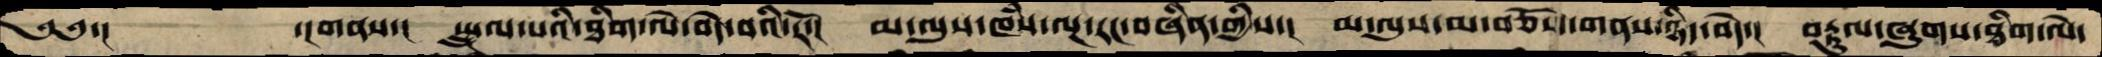༄༅་།         ་།གནས་།  སྤྲུལ་པའི་ཐིག་ལེ་བདེ་བའི་རོ་།  མ་ལུས་ཁཾས་ལྔ་རང་བཞིན་གྱིས་།  མ་ལུས་མ་བཅོས་གནས་ཉིད་བདེ་།  བརྟུལ་ཞུགས་ཐིག་ལེ་
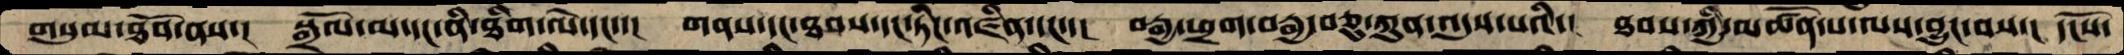གསུམ་ཐོབ་ནས་།  སྒྲོལ་མ་དང་ནི་ཐིག་ལེ་དང་་།  གནས་དང་ཐབས་དང་ཏིང་འཛིན་དང་་།  བརྒྱ་ཕྲག་བརྒྱ་བཅུ་ཀུན་འདུས་པའི་།  ཐབས་ཀྱི་མཚོན་པ་ལས་བྱུང་བས་།  དངོས་
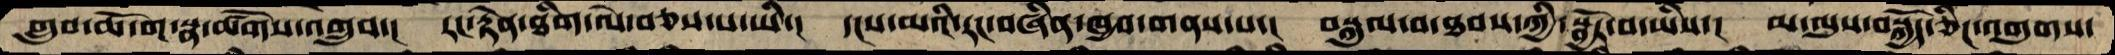གྲུབ་ཆོ་ག་སྣ་ཚོགས་འགྲུབ་།  རང་རྟེན་ཐིག་ལེ་བཅས་པ་ཡི་།  དངས་མའི་རང་བཞིན་ཁྱབ་གནས་པ་།  བསྐུལ་བ་ཐབས་ཀྱི་སྦྱོར་བ་ཡིས་།  མ་ལུས་བསྐྱོད་ཅིང་འགུགས་
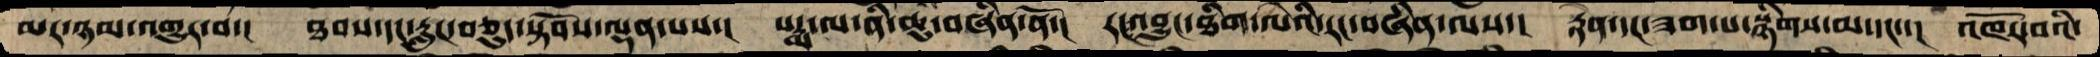མར་ཉམ་འགྱུར་བ་།  ཐབས་དང་རླུང་བཅུད་སྟོབས་ལྡན་པས་།  པདྨ་ལ་ནི་ཆུ་བཞིན་ནོ་།  རངའབྱུང་ཐིག་ལེའི་རང་བཞིན་ལས་།  རྟེན་དང་ཟག་པ་སྙིགས་མ་དང་་།  འཁོར་བའི་
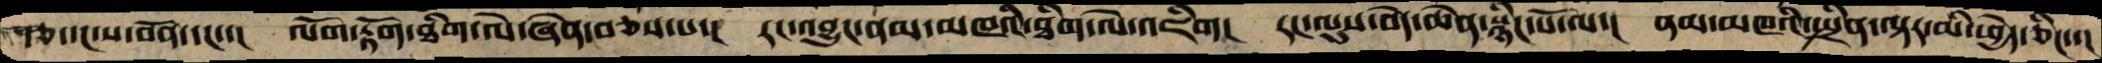རྩ་དང་ས་བོན་དང་་།  ལོག་རྟོག་ཐིག་ལེ་ཞེན་བཅས་པ་།  རང་འབྱུང་ནམ་མཁའི་ཐིག་ལེ་འཇིག།  རང་ལུས་བདེ་ཆེན་སྙིང་པོ་ལ་།  ནམ་མཁའི་སྤྲིན་ལྟར་མི་ཕྱེད་ཅིང་་།
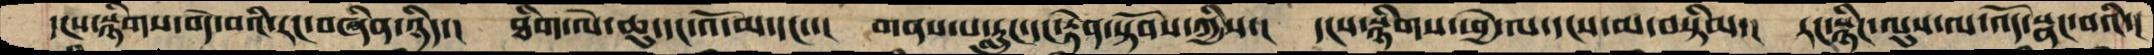དངས་སྙིགས་བདེ་བའི་རང་བཞིན་ཉིད་།  ཐིག་ལེ་ཆུ་དང་འོ་མ་དང་་།  གནས་པ་རླུང་དང་རྟེན་སྟོབས་ཀྱིས་།  དངས་སྙིགས་ཕྱེ་ལ་དངས་མ་བསྟིམ་།  རང་སྙིཌ་ལུས་ལ་འོད་སྣང་བའི་།
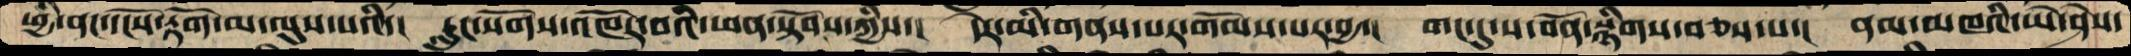ཕྱི་ནང་དངོས་རྟོག་མ་ལུས་པའི་།  རླུང་སོགས་འཁོར་བའི་ཕན་སྟོབས་ཀྱིས་།  དེར་མི་གནས་པར་གོམས་པར་བྱ་།   གང་དུ་ས་བོན་སྙིགས་བཅས་པ་།  ནམ་མཁའི་ཡེ་ཤེས་
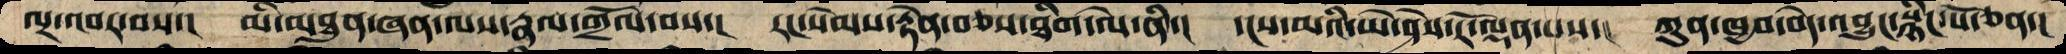ལྔ་འབར་བས་།  མི་མཐུན་ཞན་ལས་རྣམ་གྲོལ་བས་།  རང་སེམས་རྟེན་བཅས་ཐིག་ལེ་ནི་།  དངས་མའི་ཡེ་ཤེས་རོ་ལྡན་པས་།  ཀུན་ཁྱབ་བདེ་འབྱུང་སྙིང་པོ་ཅན་།
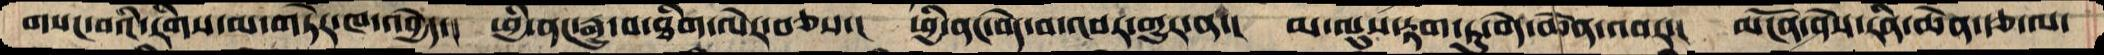གསང་བའི་རིགས་མ་གཏེར་ཁ་འབྱེད་།  ཕྱི་ནང་རྒྱུ་བ་ཐིག་ལེར་བཅས་།  ཕྱི་ནང་བདེ་བ་འབར་གྱུར་ན་།  མ་ལུས་རྟག་ཏུ་བདེ་ཆེན་འབར་།  མངོན་ཤེས་རིན་ཆེན་རྩ་ལ་
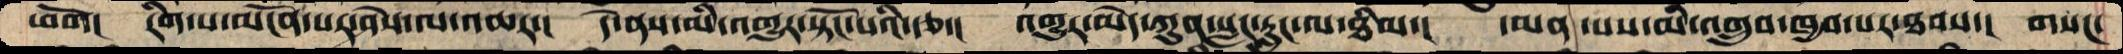ཕོག།  རིག་པ་མངོན་པར་ཤེས་ལ་འཆར་།  དེ་ནས་མི་འགྱུར་སྟོང་པའི་རྩ་།  འགྱུར་མེད་ཀུན་སླང་རླུང་ལ་ཐིམ་།  དམན་པས་མི་འགྲུབ་ཁྱབ་པར་ཐབས་།  གསང་
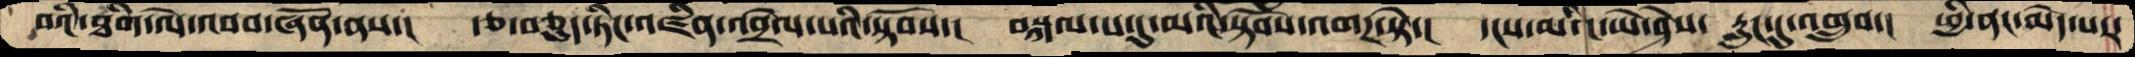བའི་ཐིག་ལེ་འབབ་ཞོན་ནས་།  རྩ་བཅུད་ཏིང་འཛིན་འབྲེལ་པའི་སྟོབས་།  བསྐལ་པ་དུ་མའི་སྟོབས་འགཌ་སྟེ་།  དངས་མའི་ཡེ་ཤེས་ རླུང་དུ་འགྲུབ་།  ཕྱི་ནང་མེད་པར་
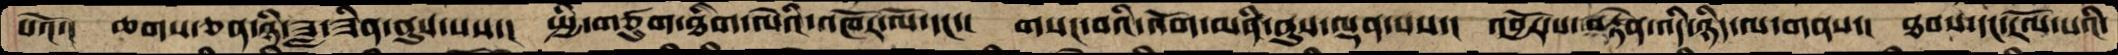པའོ་།  ཆགས་ཅན་ཉི་ཟླ་ཟིན་ནུས་པས་།  སྤྱི་གཙུག་ཐིག་ལེའི་འཁོར་ལོ་དང་།  གསང་བའི་འོག་མནི་ནུས་ལྡན་པས་།  འབྱོར་བ་བརྟེན་འདི་ཉིད་ལ་གནས་།  ཐབས་དང་རོལ་པའི་
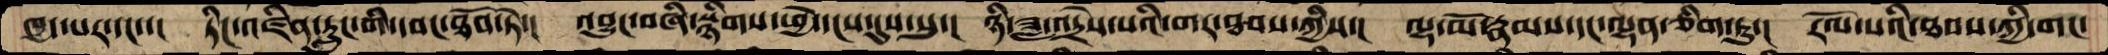ཁྱད་པར་དང་་།  ཏིང་འཛིན་རླུང་གི་དབང་ཐོབ་ཏེ་།  འབྱུང་བཞི་སྙིགས་ཕྱེ་དངས་དུས་སུ་།  ཉི་ཟླ་འདྲེས་པའི་གར་ཐབས་ཀྱིས་།  ལྷ་མོ་རྣམས་དང་ལྷན་ཅིག་ཏུ་།  རོལ་པའི་ཐབས་ཀྱི་གང་
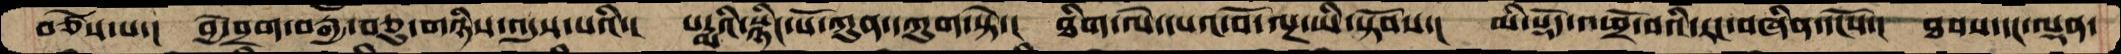བཙེས་པ་།  བྱེ་བྲག་བརྒྱ་བཅུ་གཉིས་འདུས་པའི་།  པདྨའི་སྙིང་པོ་ཀུན་དཀུག་སྟེ་།  ཐིག་ལེ་དཔའ་བོ་ལྔ་ཡི་སྟོབས་།  མི་སྡོད་འཕྲོ་བའི་རང་བཞིན་དངོས་།  ཐབས་དང་ལྡན་
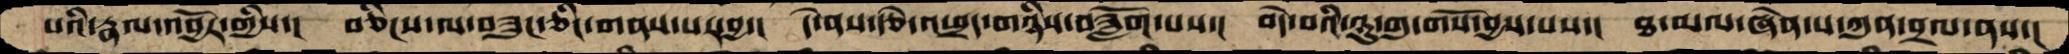པའི་རྣལ་འབྱོར་གྱིས་།  བཅིངས་ལ་བཟུང་ཅིང་གནས་པར་བྱ་།  དེ་ནས་རྩེ་འཕྲད་གཉིས་བཟློག་པས་།  བདེ་བའི་ཉུ་གུ་གསོ་བྱས་པས་།  ཐ་མལ་ཞེན་པ་ཀུན་བྲལ་ནས་།
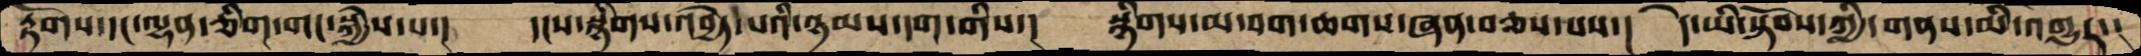རྟོགས་དང་ལྷན་ཅིག་གང་སྐྱེས་པ་།  དངས་སྙིགས་འབྱེད་པའི་ཉམས་དག་གིས་།  སྙིགས་མ་བག་ཆགས་ཞན་བཅས་པས་།  དེ་ཡི་སྟོབས་ཀྱི་གནས་མི་འགྱུར་།
